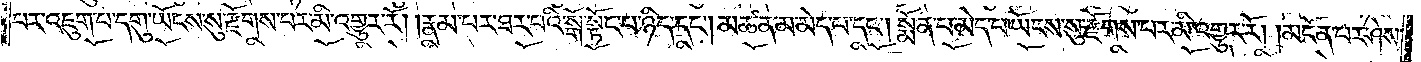པར་འཇུག་པ་དགུ་ཡོངས་སུ་རྫོགས་པར་མི་འགྱུར་རོ། །རྣམ་པར་ཐར་པའི་སྒོ་སྟོང་པ་ཉིད་དང༌། མཚན་མ་མེད་པ་དང༌། སྨོན་པ་མེད་པ་ཡོངས་སུ་རྫོགས་པར་མི་འགྱུར་རོ། །མངོན་པར་ཤེས་
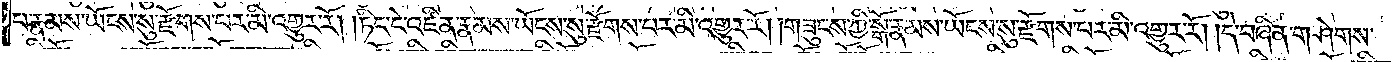པ་རྣམས་ཡོངས་སུ་རྫོགས་པར་མི་འགྱུར་རོ། །ཏིང་ངེ་འཛིན་རྣམས་ཡོངས་སུ་རྫོགས་པར་མི་འགྱུར་རོ། །གཟུངས་ཀྱི་སྒོ་རྣམས་ཡོངས་སུ་རྫོགས་པར་མི་འགྱུར་རོ། །དེ་བཞིན་གཤེགས་
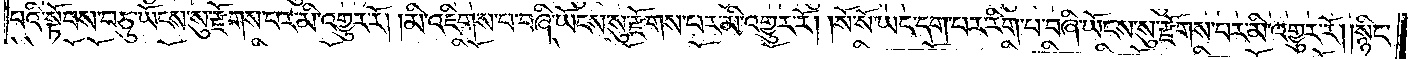པའི་སྟོབས་བཅུ་ཡོངས་སུ་རྫོགས་པར་མི་འགྱུར་རོ། །མི་འཇིགས་པ་བཞི་ཡོངས་སུ་རྫོགས་པར་མི་འགྱུར་རོ། །སོ་སོ་ཡང་དག་པར་རིག་པ་བཞི་ཡོངས་སུ་རྫོགས་པར་མི་འགྱུར་རོ། །སྙིང་
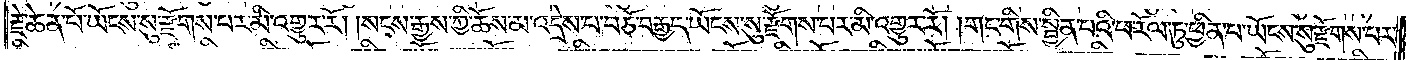རྗེ་ཆེན་པོ་ཡོངས་སུ་རྫོགས་པར་མི་འགྱུར་རོ། །སངས་རྒྱས་ཀྱི་ཆོས་མ་འདྲེས་པ་བཅོ་བརྒྱད་ཡོངས་སུ་རྫོགས་པར་མི་འགྱུར་རོ། །གང་གིས་སྦྱིན་པའི་ཕ་རོལ་ཏུ་ཕྱིན་པ་ཡོངས་སུ་རྫོགས་པར་
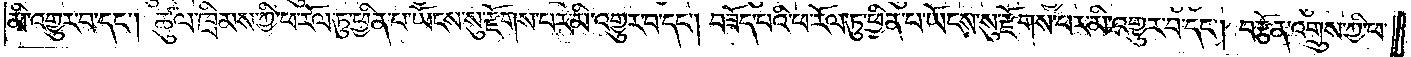མི་འགྱུར་བ་དང༌། ཚུལ་ཁྲིམས་ཀྱི་ཕ་རོལ་ཏུ་ཕྱིན་པ་ཡོངས་སུ་རྫོགས་པར་མི་འགྱུར་བ་དང༌། བཟོད་པའི་ཕ་རོལ་ཏུ་ཕྱིན་པ་ཡོངས་སུ་རྫོགས་པར་མི་འགྱུར་བ་དང༌། བརྩོན་འགྲུས་ཀྱི་ཕ་
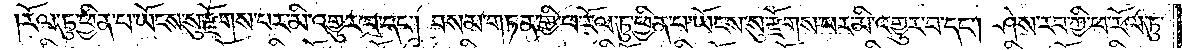རོལ་ཏུ་ཕྱིན་པ་ཡོངས་སུ་རྫོགས་པར་མི་འགྱུར་བ་དང༌། བསམ་གཏན་གྱི་ཕ་རོལ་ཏུ་ཕྱིན་པ་ཡོངས་སུ་རྫོགས་པར་མི་འགྱུར་བ་དང༌། ཤེས་རབ་ཀྱི་ཕ་རོལ་ཏུ་
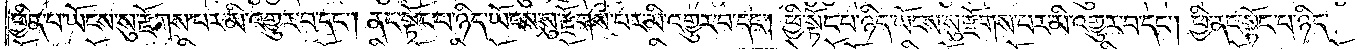ཕྱིན་པ་ཡོངས་སུ་རྫོགས་པར་མི་འགྱུར་བ་དང༌། ནང་སྟོང་པ་ཉིད་ཡོངས་སུ་རྫོགས་པར་མི་འགྱུར་བ་དང༌། ཕྱི་སྟོང་པ་ཉིད་ཡོངས་སུ་རྫོགས་པར་མི་འགྱུར་བ་དང༌། ཕྱི་ནང་སྟོང་པ་ཉིད་
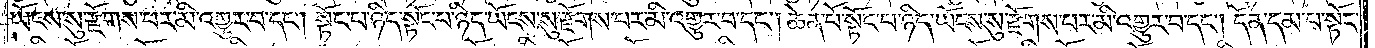ཡོངས་སུ་རྫོགས་བར་མི་འགྱུར་བ་དང༌། སྟོང་པ་ཉིད་སྟོང་པ་ཉིད་ཡོངས་སུ་རྫོགས་པར་མི་འགྱུར་བ་དང༌། ཆེན་པོ་སྟོང་པ་ཉིད་ཡོངས་སུ་རྫོགས་པར་མི་འགྱུར་བ་དང༌། དོན་དམ་པ་སྟོང་
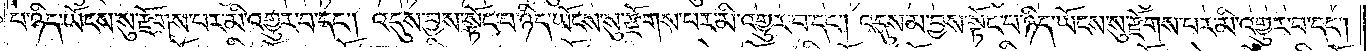པ་ཉིད་ཡོངས་སུ་རྫོགས་པར་མི་འགྱུར་བ་དང༌། འདུས་བྱས་སྟོང་བ་ཉིད་ཡོངས་སུ་རྫོགས་པར་མི་འགྱུར་བ་དང༌། འདུས་མ་བྱས་སྟོང་པ་ཉིད་ཡོངས་སུ་རྫོགས་པར་མི་འགྱུར་བ་དང༌།
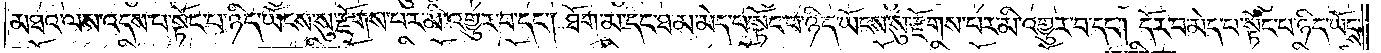མཐའ་ལས་འདས་པ་སྟོང་པ་ཉིད་ཡོངས་སུ་རྫོགས་བར་མི་འགྱུར་བ་དང༌། ཐོག་མ་དང་ཐ་མ་མེད་པ་སྟོང་བ་ཉིད་ཡོངས་སུ་རྫོགས་པར་མི་འགྱུར་བ་དང༌། དོར་བ་མེད་པ་སྟོང་པ་ཉིད་ཡོངས་
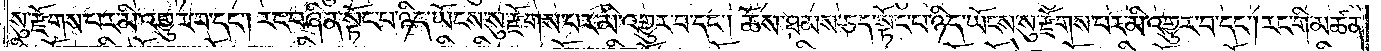སུ་རྫོགས་པར་མི་འགྱུར་བ་དང༌། རང་བཞིན་སྟོང་པ་ཉིད་ཡོངས་སུ་རྫོགས་པར་མི་འགྱུར་བ་དང༌། ཆོས་ཐམས་ཅད་སྟོང་པ་ཉིད་ཡོངས་སུ་རྫོགས་པར་མི་འགྱུར་བ་དང༌། རང་གི་མཚན་
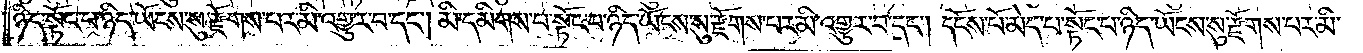ཉིད་སྟོང་པ་ཉིད་ཡོངས་སུ་རྫོགས་པར་མི་འགྱུར་བ་དང༌། མི་དམིགས་པ་སྟོང་པ་ཉིད་ཡོངས་སུ་རྫོགས་པར་མི་འགྱུར་བ་དང༌། དངོས་པོ་མེད་པ་སྟོང་པ་ཉིད་ཡོངས་སུ་རྫོགས་པར་མི་
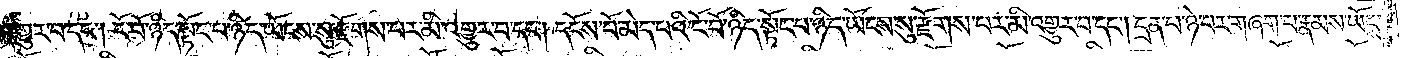འགྱུར་བ་དང༌། ངོ་བོ་ཉིད་སྟོང་པ་ཉིད་ཡོངས་སུ་རྫོགས་པར་མི་འགྱུར་བ་དང༌། དངོས་པོ་མེད་པའི་ངོ་བོ་ཉིད་སྟོང་པ་ཉིད་ཡོངས་སུ་རྫོགས་པར་མི་འགྱུར་བ་དང༌། དྲན་པ་ཉེ་བར་གཞག་པ་རྣམས་ཡོངས་
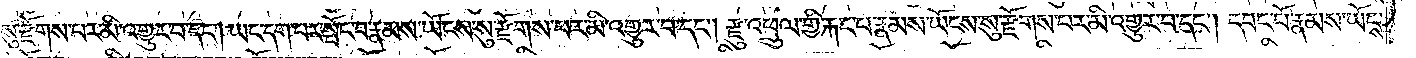སུ་རྫོགས་པར་མི་འགྱུར་བ་དང༌། ཡང་དག་པར་སྤོང་བ་རྣམས་ཡོངས་སུ་རྫོགས་པར་མི་འགྱུར་བ་དང༌། རྫུ་འཕྲུལ་གྱི་རྐང་པ་རྣམས་ཡོངས་སུ་རྫོགས་པར་མི་འགྱུར་བ་དང༌། དབང་པོ་རྣམས་ཡོངས་
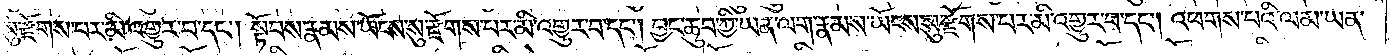སུ་རྫོགས་པར་མི་འགྱུར་བ་དང༌། སྟོབས་རྣམས་ཡོངས་སུ་རྫོགས་པར་མི་འགྱུར་བ་དང༌། བྱང་ཆུབ་ཀྱི་ཡན་ལག་རྣམས་ཡོངས་སུ་རྫོགས་པར་མི་འགྱུར་བ་དང༌། འཕགས་པའི་ལམ་ཡན་
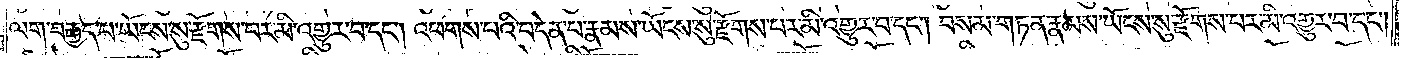ལག་བརྒྱད་པ་ཡོངས་སུ་རྫོགས་པར་མི་འགྱུར་བ་དང༌། འཕགས་པའི་བདེན་པ་རྣམས་ཡོངས་སུ་རྫོགས་པར་མི་འགྱུར་བ་དང༌། བསམ་གཏན་རྣམས་ཡོངས་སུ་རྫོགས་པར་མི་འགྱུར་བ་དང༌།
